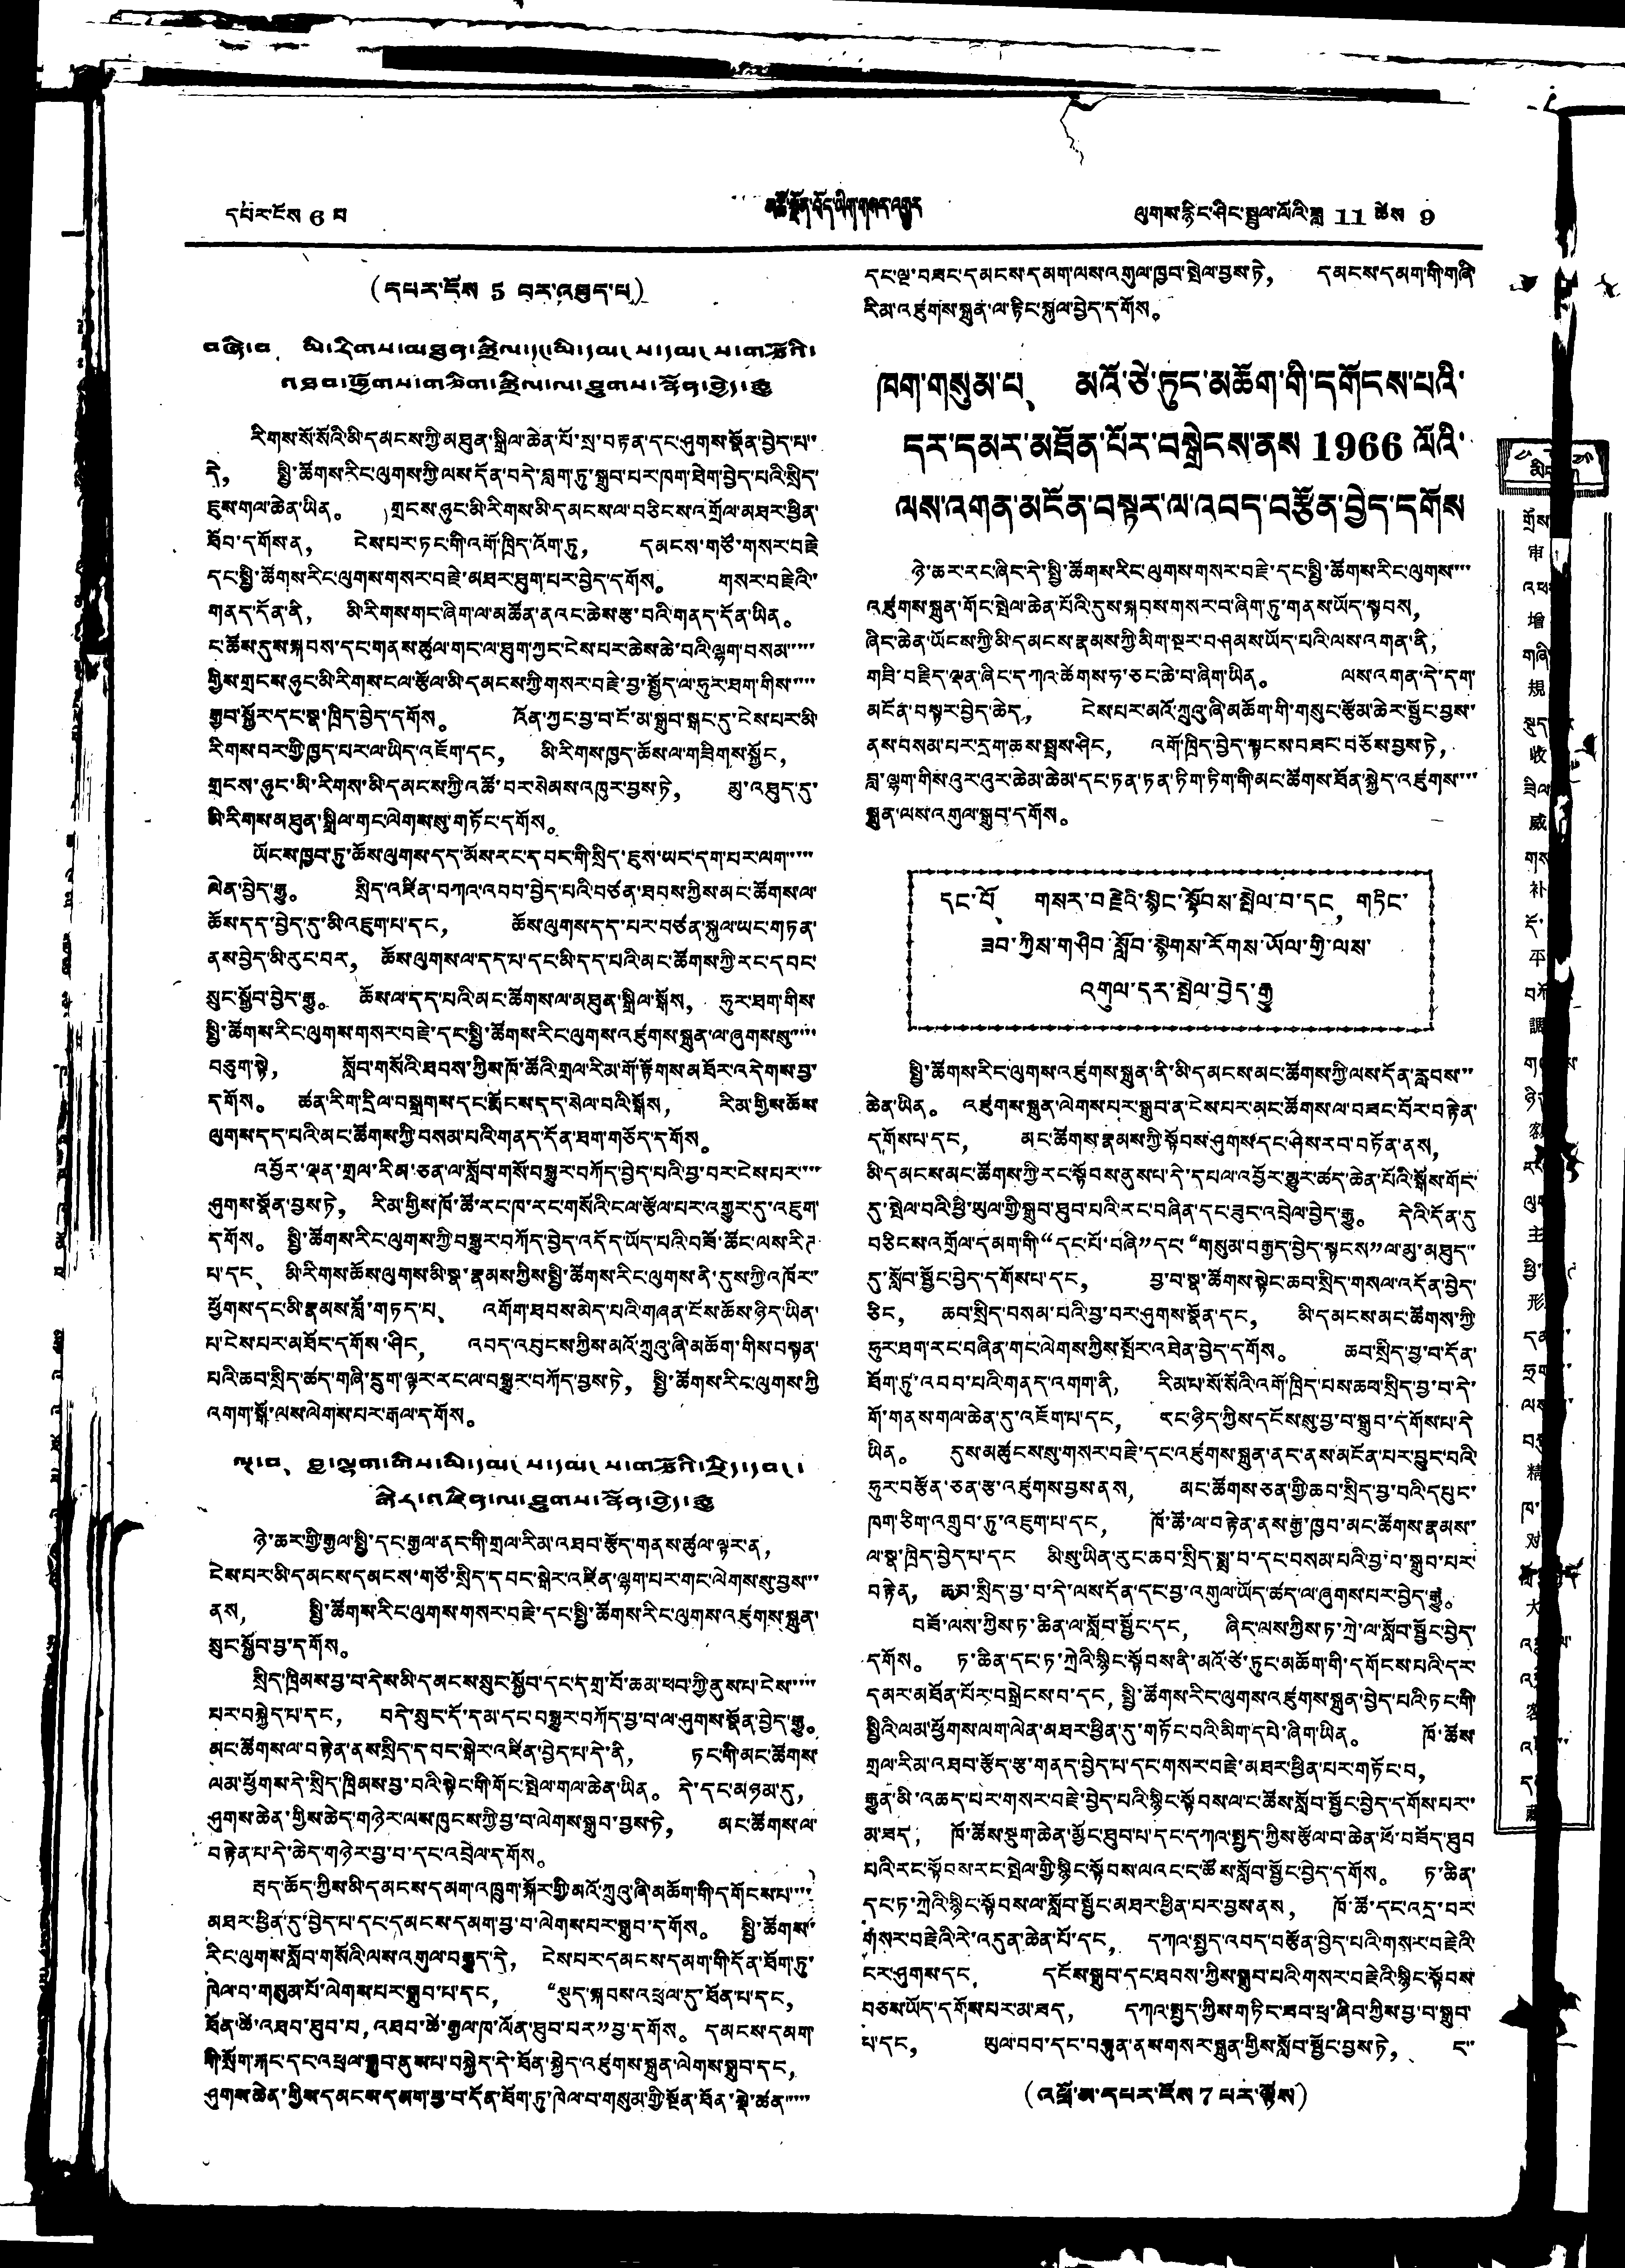དཔར་ངོས 6 པ མཚོ་སྔོན་བོད་ཡིག་གསར་འགྱུར ལུགས་རྙིང་ཤིང་སྦྲུལ་ལོའི་ཟླ 11 ཚེས 9
(དཔར་ངོས 5 བར་འཐུད་པ)
བཞི་བ、 མི་རིགས་མཐུན་སྒྲིལ་དང་མི་དམངས་དམངས་གཙོའི་
འཐབ་ཕྱོགས་གཅིག་སྒྲིལ་ལ་ཤུགས་སྣོན་བྱེད་རྒྱུ
རིགས་སོ་སོའི་མི་དམངས་ཀྱི་མཐུན་སྒྲིལ་ཆེན་པོ་སྲ་བརྟན་དང་ཤུགས་སྣོན་བྱེད་པ་་
དེ་， སྤྱི་ཚོགས་རིང་ལུགས་ཀྱི་ལས་དོན་བདེ་བླག་ཏུ་སྒྲུབ་པར་ཁག་ཐེག་བྱེད་པའི་སྲིད་
ཇུས་གལ་ཆེན་ཡིན。 གྲངས་ཉུང་མི་རིགས་མི་དམངས་ལ་བཅིངས་འགྲོལ་མཐར་ཕྱིན་
ཐོབ་དགོས་ན， ངེས་པར་ཏང་གི་འགོ་ཁྲིད་འོག་ཏུ， དམངས་གཙོ་གསར་བརྗེ
དང་སྤྱི་ཚོགས་རིང་ལུགས་གསར་བརྗེ་མཐར་ཐུག་པར་བྱེད་དགོས。 གསར་བརྗེའི་་
གནད་དོན་ནི， མི་རིགས་གང་ཞིག་ལ་མཚོན་ནའང་ཆེས་རྩ་བའི་གནད་དོན་ཡིན。
ང་ཚོས་དུས་སྐབས་དང་གནས་ཚུལ་གང་ལ་ཐུག་ཀྱང་ངེས་པར་ཆེས་ཆེ་བའི་ལྷག་བསམ་་་་་
གྱིས་གྲངས་ཉུང་མི་རིགས་ངལ་རྩོལ་མི་དམངས་ཀྱི་གསར་བརྗེ་བྱ་སྤྱོད་ལ་ཧུར་ཐག་གིས་་་་་
རྒྱབ་སྐྱོར་དང་སྣ་ཁྲིད་བྱེད་དགོས。 འོན་ཀྱང་བྱ་བ་ངོ་མ་སྒྲུབ་སྒང་དུ་ངེས་པར་མི་
རིགས་བར་གྱི་ཁྱད་པར་ལ་ཡིད་འཇོག་དང， མི་རིགས་ཁྱད་ཆོས་ལ་གཟིགས་སྐྱོང，
གྲངས་ཉུང་མི་རིགས་མི་དམངས་ཀྱི་འཚོ་བར་སེམས་འཁུར་བྱས་ཏེ， མུ་འཐུད་དུ་
མི་རིགས་མཐུན་སྒྲིལ་གང་ལེགས་སུ་གཏོང་དགོས。
ཡོངས་ཁྱབ་ཏུ་ཆོས་ལུགས་དད་མོས་རང་དབང་གི་སྲིད་ཇུས་ཡང་དག་པར་ལག་་་་་
ལེན་བྱེད་རྒྱུ。 སྲིད་འཛིན་བཀའ་འབབ་བྱེད་པའི་བཙན་ཐབས་ཀྱིས་མང་ཚོགས་ལ་
ཆོས་དད་བྱེད་དུ་མི་འཇུག་པ་དང， ཆོས་ལུགས་དད་པར་བཙན་སྐུལ་ཡང་གཏན་
ནས་བྱེད་མི་རུང་བར， ཆོས་ལུགས་ལ་དད་པ་དང་མི་དད་པའི་མང་ཚོགས་ཀྱི་རང་དབང་
སྲུང་སྐྱོབ་བྱེད་རྒྱུ。 ཆོས་ལ་དད་པའི་མང་ཚོགས་ལ་མཐུན་སྒྲིལ་སྒོས， ཧུར་ཐག་གིས་
སྤྱི་ཚོགས་རིང་ལུགས་གསར་བརྗེ་དང་སྤྱི་ཚོགས་རིང་ལུགས་འཛུགས་སྐྲུན་ལ་ཞུགས་སུ་་་་་
བཅུག་སྟེ， སློབ་གསོའི་ཐབས་ཀྱིས་ཁོ་ཚོའི་གྲལ་རིམ་གོ་རྟོགས་མཐོར་འདེགས་བྱ་
དགོས。 ཚན་རིག་དྲིལ་བསྒྲགས་དང་རྨོངས་དད་སེལ་བའི་སྒོས， རིམ་གྱིས་ཆོས་
ལུགས་དད་པའི་མང་ཚོགས་ཀྱི་བསམ་པའི་གནད་དོན་ཐག་གཅོད་དགོས。
འབྱོར་ལྡན་གྲལ་རིམ་ཅན་ལ་སློབ་གསོ་བསྒྱུར་བཀོད་བྱེད་པའི་བྱ་བར་ངེས་པར་་་་་
ཤུགས་སྣོན་བྱས་ཏེ， རིམ་གྱིས་ཁོ་ཚོ་རང་ཁ་རང་གསོའི་ངལ་རྩོལ་པར་འགྱུར་རུ་འཇུག་
དགོས。 སྤྱི་ཚོགས་རིང་ལུགས་ཀྱི་བསྒྱུར་བཀོད་བྱེད་འདོད་ཡོད་པའི་བཟོ་ཚོང་ལས་རིཊ་
པ་དང、 མི་རིགས་ཆོས་ལུགས་མི་སྣ་རྣམས་ཀྱིས་སྤྱི་ཚོགས་རིང་ལུགས་ནི་དུས་ཀྱི་འཁོར་་
ཕྱོགས་དང་མི་རྣམས་བློ་གཏད་པ། འགོག་ཐབས་མེད་པའི་གཞན་ངོས་ཆོས་ཉིད་ཡིན་
པ་ངེས་པར་མཐོང་དགོས་ཤིང， འབད་འབུངས་ཀྱིས་མའོ་ཀྲུའུ་ཞི་མཆོག་གིས་བསྟན་
པའི་ཆབ་སྲིད་ཚད་གཞི་དྲུག་ལྟར་རང་ལ་བསྒྱུར་བཀོད་བྱས་ཏེ， སྤྱི་ཚོགས་རིང་ལུགས་ཀྱི་
འགག་སྒོ་ལས་ལེགས་པར་རྒལ་དགོས。
ལྔ་བ、 བླ་ལྷག་གིས་མི་དམངས་དམངས་གཙོའི་སྲིད་དབང་
སྒེར་འཛིན་ལ་ཤུགས་སྣོན་བྱེད་རྒྱུ
ཉེ་ཆར་གྱི་རྒྱལ་སྤྱི་དང་རྒྱལ་ནང་གི་གྲལ་རིམ་འཐབ་རྩོད་གནས་ཚུལ་ལྟར་ན།
ངེས་པར་མི་དམངས་དམངས་གཙོ་སྲིད་དབང་སྒེར་འཛིན་ལྷག་པར་གང་ལེགས་སུ་བྱས་་་
ནས， སྤྱི་ཚོགས་རིང་ལུགས་གསར་བརྗེ་དང་སྤྱི་ཚོགས་རིང་ལུགས་འཛུགས་སྐྲུན་
སྲུང་སྐྱོབ་བྱ་དགོས。
སྲིད་ཁྲིམས་བྱ་བ་དེས་མི་དམངས་སྲུང་སྐྱོབ་དང་དགྲ་བོ་ཆམ་ཕབ་ཀྱི་ནུས་པ་ངེས་་་་་
པར་བསྐྱེད་པ་དང， བདེ་སྲུང་དོ་དམ་དང་བསྒྱུར་བཀོད་བྱ་བ་ལ་ཤུགས་སྣོན་བྱེད་རྒྱུ。
མང་ཚོགས་ལ་བརྟེན་ནས་སྲིད་ད་བང་སྒེར་འཛིན་བྱེད་པ་དེ་ནི， ཏང་གི་མང་ཚོགས་
ལམ་ཕྱོགས་དེ་སྲིད་ཁྲིམས་བྱ་བའི་སྟེང་གི་གོང་སྤེལ་གལ་ཆེན་ཡིན。 དེ་དང་མཉམ་དུ，
ཤུགས་ཆེན་གྱིས་ཆེད་གཉེར་ལས་ཁུངས་ཀྱི་བྱ་བ་ལེགས་སྒྲུབ་བྱས་ཏེ， མང་ཚོགས་ལ་
བརྟེན་པ་དེ་ཆེད་གཉེར་བྱ་བ་དང་འབྲེལ་དགོས。
རྦད་ཆོད་ཀྱིས་མི་དམངས་དམག་འཁྲུག་སྐོར་གྱི་མའོ་ཀྲུའུ་ཞི་མཆོག་གི་དགོངས་པ་་་་
མཐར་ཕྱིན་དུ་བྱེད་པ་དང་དམངས་དམག་བྱ་བ་ལེགས་པར་སྒྲུབ་དགོས。 སྤྱི་ཚོགས་
རིང་ལུགས་སློབ་གསོའི་ལས་འགུལ་བརྒྱུད་དེ， ངེས་པར་དམངས་དམག་གི་དོན་ཐོག་ཏུ་
ཁེལ་བ་གསུམ་པོ་ལེགས་པར་སྒྲུབ་པ་དང， “སྡུད་སྐབས་འཕྲལ་དུ་ཐོན་པ་དང，
ཐོན་ཚེ་འཐབ་ཐུབ་པ，འཐབ་ཚེ་རྒྱལ་ཁ་ལོན་ཐུབ་པར”བྱ་དགོས。 དམངས་དམག
གི་སྲོག་རྐང་དང་འཕྲལ་སྒྲུབ་ནུས་པ་བསྐྱེད་དེ་ཐོན་སྐྱེད་འཛུགས་སྐྲུན་ལེགས་སྒྲུབ་དང，
ཤུགས་ཆེན་གྱིས་དམངས་དམག་བྱ་བ་དོན་ཐོག་ཏུ་ཁེལ་བ་གསུམ་གྱི་སྔོན་ཐོན་སྡེ་ཚན་་་་་་
དང་ལྔ་བཟང་དམངས་དམག་ལས་འགུལ་ཁྱབ་སྤེལ་བྱས་ཏེ， དམངས་དམག་གི་གཞི་
རིམ་འཛུགས་སྐྲུན་ལ་རྟིང་སྐུལ་བྱེད་དགོས。
ཁག་གསུམ་པ、 མའོ་ཙེ་ཏུང་མཆོག་གི་དགོངས་པའི་
དར་དམར་མཐོན་པོར་བསྒྲེངས་ནས 1966 ལོའི་
ལས་འགན་མངོན་བསྟར་ལ་འབད་བརྩོན་བྱེད་དགོས
ཉེ་ཆར་རང་ཞིང་དེ་སྤྱི་ཚོགས་རིང་ལུགས་གསར་བརྗེ་དང་སྤྱི་ཚོགས་རིང་ལུགས་་་་
འཛུགས་སྐྲུན་གོང་སྤེལ་ཆེན་པོའི་དུས་སྐབས་གསར་བ་ཞིག་ཏུ་གནས་ཡོད་སྟབས，
ཞིང་ཆེན་ཡོངས་ཀྱི་མི་དམངས་རྣམས་ཀྱི་མིག་སྔར་བཤམས་ཡོད་པའི་ལས་འགན་ནི，
གཟི་བརྗིད་ལྡན་ཞིང་དཀའ་ཚེགས་ཧ་ཅང་ཆེ་བ་ཞིག་ཡིན。 ལས་འགན་དེ་དག
མངོན་བསྟར་བྱེད་ཆེད， ངེས་པར་མའོ་ཀྲུའུ་ཞི་མཆོག་གི་གསུང་རྩོམ་ཆེར་སྦྱོང་བྱས་
ནས་བསམ་པར་དྲག་ཆས་སྤུས་ཤིང， འགོ་ཁྲིད་བྱེད་སྟངས་བཟང་བཅོས་བྱས་ཏེ，
བླ་ལྷག་གིས་འུར་འུར་ཆེམ་ཆེམ་དང་ཏན་ཏན་ཏིག་ཏིག་གི་མང་ཚོགས་ཐོན་སྐྱེད་འཛུགས་་་་
སྐྲུན་ལས་འགུལ་སྒྲུབ་དགོས。
དང་པོ、 གསར་བརྗེའི་སྙིང་སྟོབས་སྤེལ་བ་དང གཏིང་
ཟབ་ཀྱིས་གཤིབ་སློབ་སྙེགས་རོགས་ཡོལ་གྱི་ལས་
འགུལ་དར་སྤེལ་བྱེད་རྒྱུ
སྤྱི་ཚོགས་རིང་ལུགས་འཛུགས་སྐྲུན་ནི་མི་དམངས་མང་ཚོགས་ཀྱི་ལས་དོན་རླབས་་་
ཆེན་ཡིན。 འཛུགས་སྐྲུན་ལེགས་པར་སྒྲུབ་ན་ངེས་པར་མང་ཚོགས་ལ་བཟང་པོར་བརྟེན་
དགོས་པ་དང， མང་ཚོགས་རྣམས་ཀྱི་སྟོབས་ཤུགས་དང་ཤེས་རབ་བཏོན་ནས，
མི་དམངས་མང་ཚོགས་ཀྱི་རང་སྟོབས་ནུས་པ་དེ་དཔལ་འབྱོར་མྱུར་ཚད་ཆེན་པོའི་སྒོས་གོང་་
དུ་སྤེལ་བའི་ཕྱི་ཡུལ་གྱི་སྒྲུབ་ཐུབ་པའི་རང་བཞིན་དང་ཟུང་འབྲེལ་བྱེད་རྒྱུ。 དེའི་དོན་དུ
བཅིངས་འགྲོལ་དམག་གི་“དང་པོ་བཞི”དང་“གསུམ་བརྒྱུད་བྱེད་སྟངས”ལ་མུ་མཐུད་་
དུ་སློབ་སྦྱོང་བྱེད་དགོས་པ་དང， བྱ་བ་སྣ་ཚོགས་སྟེང་ཆབ་སྲིད་གསལ་འདོན་བྱེད་
ཅིང， ཆབ་སྲིད་བསམ་པའི་བྱ་བར་ཤུགས་སྣོན་དང， མི་དམངས་མང་ཚོགས་ཀྱི་
ཧུར་ཐག་རང་བཞིན་གང་ལེགས་ཀྱིས་སྤོར་འཐེན་བྱེད་དགོས。 ཆབ་སྲིད་བྱ་བ་དོན་
ཐོག་ཏུ་འབབ་པའི་གནད་འགག་ནི， རིམ་པ་སོ་སོའི་འགོ་ཁྲིད་པས་ཆབ་སྲིད་བྱ་བ་དེ་
གོ་གནས་གལ་ཆེན་དུ་འཇོག་པ་དང， རང་ཉིད་ཀྱིས་དངོས་སུ་བྱ་བ་སྒྲུབ་དགོས་པ་དེ
ཡིན。 དུས་མཚུངས་སུ་གསར་བརྗེ་དང་འཛུགས་སྐྲུན་ནང་ནས་མངོན་པར་བྱུང་བའི་
ཧུར་བརྩོན་ཅན་རྩ་འཛུགས་བྱས་ནས， མང་ཚོགས་ཅན་གྱི་ཆབ་སྲིད་བྱ་བའི་དཔུང་
ཁག་ཅིག་འགྲུབ་ཏུ་འཇུག་པ་དང， ཁོ་ཚོ་ལ་བརྟེན་ནས་རྒྱ་ཁྱབ་མང་ཚོགས་རྣམས་་
ལ་སྣ་ཁྲིད་བྱེད་པ་དང མི་སུ་ཡིན་རུང་ཆབ་སྲིད་སྨྲ་བ་དང་བསམ་པའི་བྱ་བ་སྒྲུབ་པར་
བརྟེན， ཆམ་སྲིད་བྱ་བ་དེ་ལས་དོན་དང་བྱ་འགུལ་ཡོད་ཚད་ལ་ཞུགས་པར་བྱེད་རྒྱུ。
བཟོ་ལས་ཀྱིས་ཏ་ཆིན་ལ་སློབ་སྦྱོང་དང， ཞིང་ལས་ཀྱིས་ཏ་ཀྲེ་ལ་སློབ་སྦྱོང་བྱེད་
དགོས。 ཏ་ཆིན་དང་ཏ་ཀྲེའི་སྙིང་སྟོབས་ནི་མའོ་ཙེ་ཏུང་མཆོག་གི་དགོངས་པའི་དར་
དམར་མཐོན་པོར་བསྒྲེངས་བ་དང，སྤྱི་ཚོགས་རིང་ལུགས་འཛུགས་སྐྲུན་བྱེད་པའི་ཏང་གི་
སྤྱིའི་ལམ་ཕྱོགས་ལག་ལེན་མཐར་ཕྱིན་དུ་གཏོང་བའི་མིག་དཔེ་ཞིག་ཡིན。 ཁོ་ཚོས་
གྲལ་རིམ་འཐབ་རྩོད་རྩ་གནད་བྱེད་པ་དང་གསར་བརྗེ་མཐར་ཕྱིན་པར་གཏོང་བ，
རྒྱུན་མི་འཆད་པར་གསར་བརྗེ་བྱེད་པའི་སྙིང་སྟོབས་ལ་ང་ཚོས་སློབ་སྦྱོང་བྱེད་དགོས་པར་་
མ་ཟད， ཁོ་ཚོས་སྡུག་ཆེན་མྱོང་ཐུབ་པ་དང་དཀའ་སྤྱད་ཀྱིས་རྩོལ་བ་ཆེན་པོ་བཟོད་ཐུབ
པའི་རང་སྟོབས་རང་སྤེལ་གྱི་སྙིང་སྟོབས་ལའང་ང་ཚོས་སློབ་སྦྱོང་བྱེད་དགོས。 ཏ་ཆིན་
དང་ཏ་ཀྲེའི་སྙིང་སྟོབས་ལ་སློབ་སྦྱོང་མཐར་ཕྱིན་པར་བྱས་ནས， ཁོ་ཚོ་དང་འདྲ་བར་
གསར་བརྗེའི་རེ་འདུན་ཆེན་པོ་དང， དཀའ་སྤྱད་འབད་བརྩོན་བྱེད་པའི་གསར་བརྗེའི་
ངར་ཤུགས་དང， དངོས་སྒྲུབ་དང་ཐབས་ཀྱིས་སྒྲུབ་པའི་གསར་བརྗེའི་སྙིང་སྟོབས་
བཅས་ཡོད་དགོས་པར་མ་ཟད， དཀའ་སྤྱད་ཀྱིས་གཏིང་ཟབ་ཕྲ་ཞིབ་ཀྱིས་བྱ་བ་སྒྲུབ་
པ་དང， ཡུལ་བབ་དང་བསྟུན་ནས་གསར་སྐྲུན་གྱིས་སློབ་སྦྱོང་བྱས་ཏེ， ང་
(འཕྲོ་མ་དཔར་ངོས་ 7 པར་ལྟོས)
མིང ག
གྲོས
审
འཕ
增
གཞི
規
སྡུད  ར
收
ཟིལ
威
གས
补
དོ་
平
བཀོ
調
ག   ས་
ཉིད་
客
རང་
ལུང
主
ཕྱི་  ཊ
形
དམ  ་
ཧྲག  ་་
ལས  ་
བ
精
ཁ་
对
བློ  སྐྱེད
大
འ  ལ་
འ
客
འ  ་་
ད
藏
